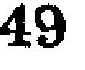49
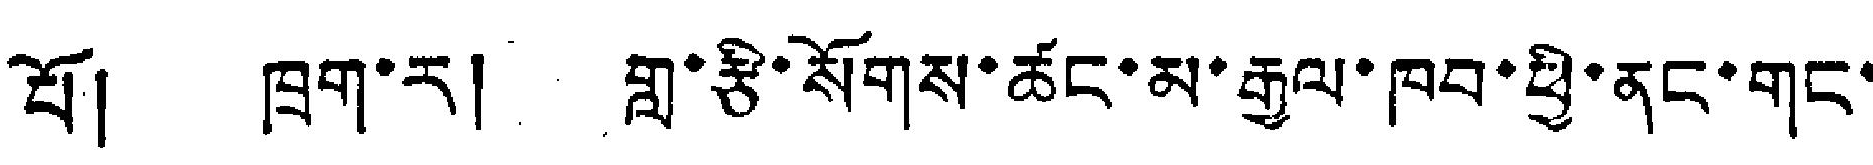པོ། ཁྲག་ར། གླ་རྩི་སོགས་ཚང་མ་རྒྱལ་ཁབ་ཕྱི་ནང་གང་
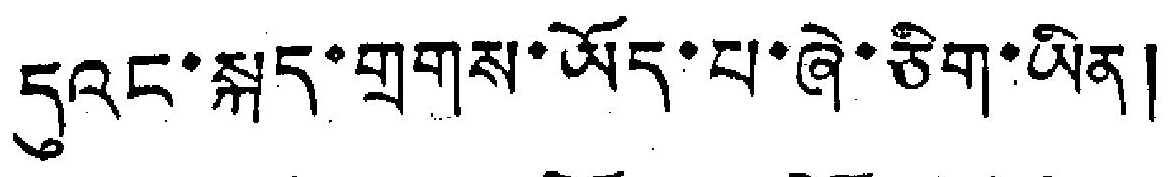དུའང་སྐད་གྲགས་ཡོད་པ་ཞེ་ཅིག་ཡིན།
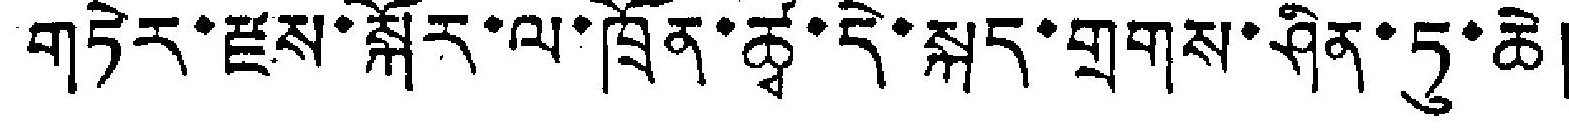གཏེར་རྫས་སྐོར་ལ་ཁྲོན་ཚྭ་དེ་སྐད་གྲགས་ཤིན་ཏུ་ཆེ།
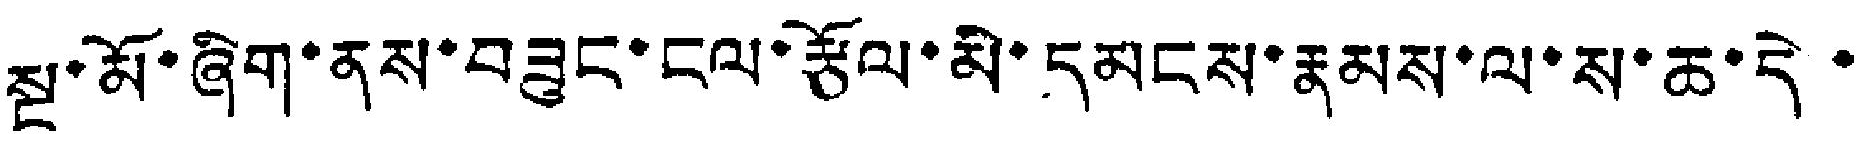སྲ་མོ་ཞིག་ནས་བཟུང་ངལ་རྩོལ་མི་དམངས་རྣམས་ལ་ས་ཆ་དེ་
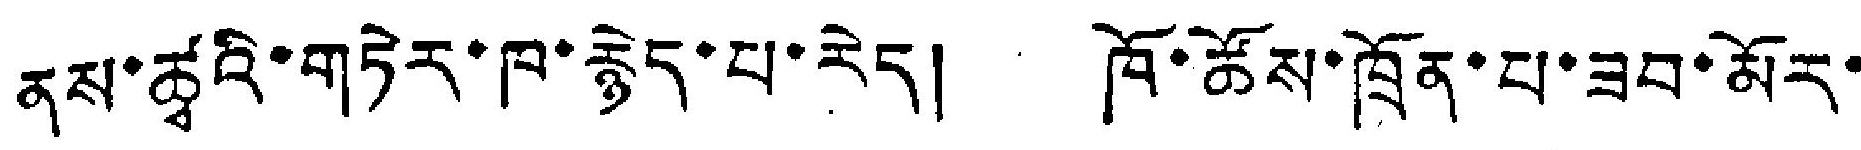ནས་ཚྭའི་གཏེར་ཁ་རྙེད་པ་རེད། ཁོ་ཚོས་ཁྲོན་པ་ཟབ་མོར་
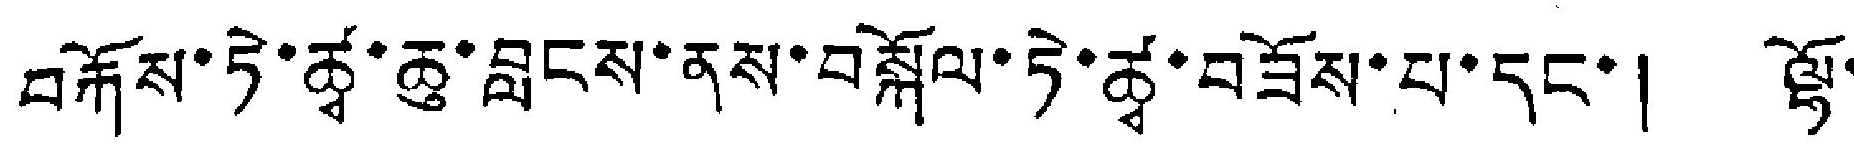བརྐོས་ཏེ་ཚྭ་ཆུ་བླངས་ནས་བསྐོལ་ཏེ་ཚྭ་བཟོས་པ་དང་། ལྷོ་
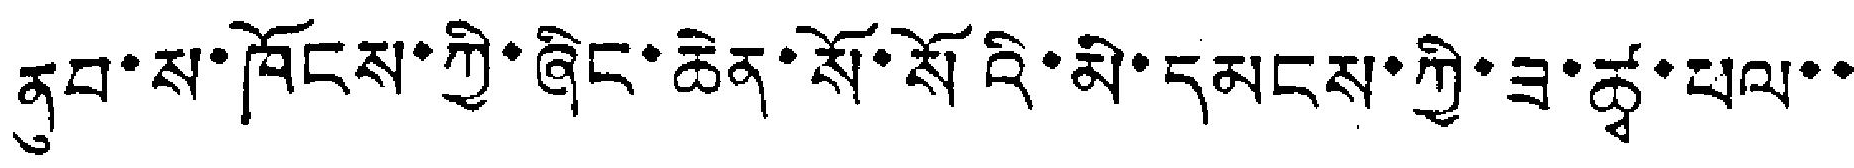ནུབ་ས་ཁོངས་ཀྱི་ཞིང་ཆེན་སོ་སོའི་མི་དམངས་ཀྱི་ཟ་ཚྭ་ཕལ་་
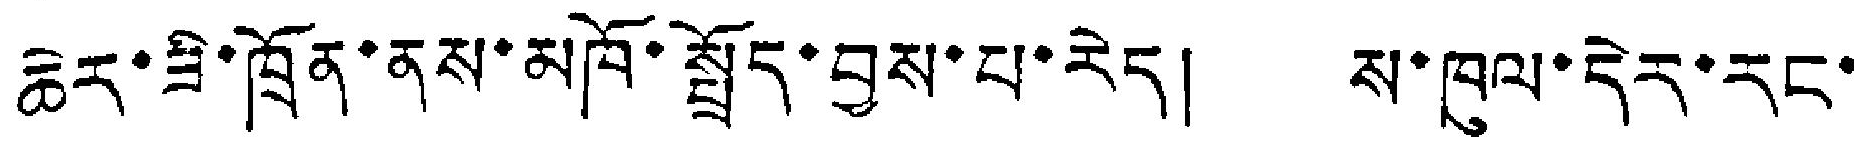ཆེར་ཟི་ཁྲོན་ནས་མཁོ་སྤྲོད་བྱས་པ་རེད། ས་ཁུལ་དེར་རང་
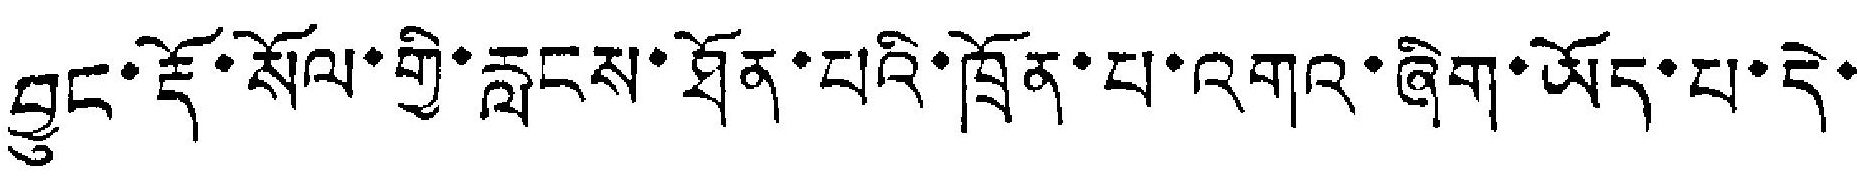བྱུང་རྡོ་སོལ་གྱི་རླངས་ཐོན་པའི་ཁྲོན་པ་འགའ་ཞིག་ཡོད་པ་དེ་
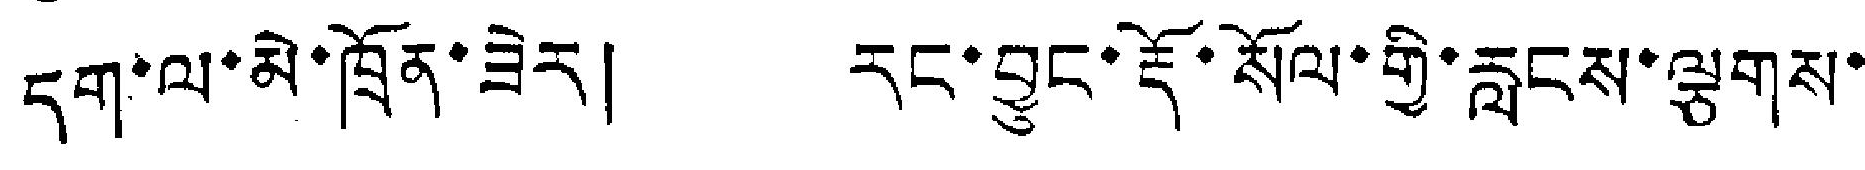དག་ལ་མེ་ཁྲོན་ཟེར། རང་བྱུང་རྡོ་སོལ་གྱི་རླངས་ལྕགས་
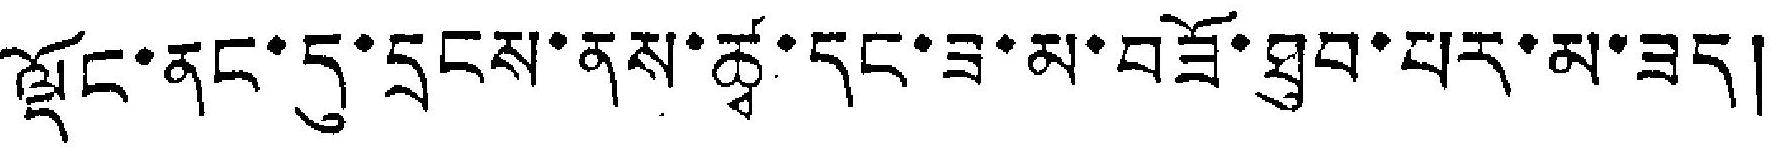ལྡོང་ནང་དུ་དྲངས་ནས་ཚྭ་དང་བ་མ་བཟོ་ཐུབ་པར་མ་ཟད།
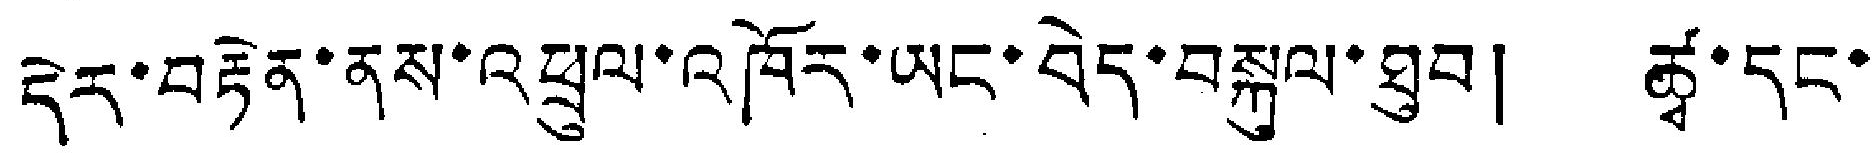དེར་བརྟེན་ནས་འཕྲུལ་འཁོར་ཡང་བེད་བསྐུལ་ཐུབ། ཚྭ་དང་
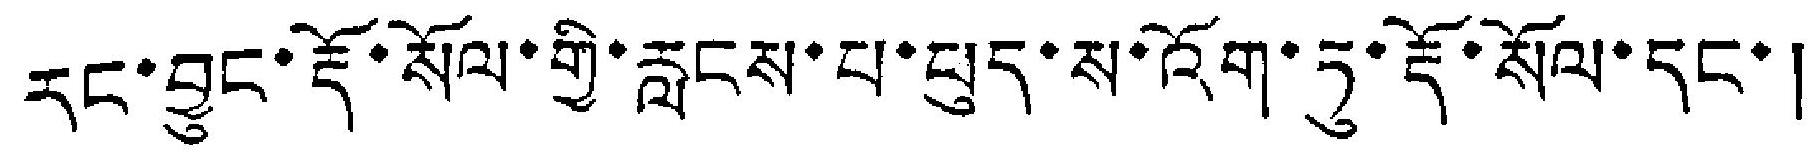རང་བྱུང་རྡོ་སོལ་གྱི་རླངས་པ་ཕུད་ས་འོག་ཏུ་རྡོ་སོལ་དང་།
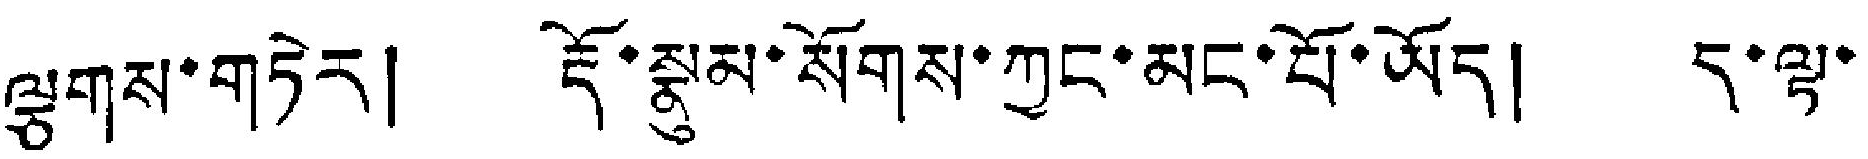ལྕགས་གཏེར། རྡོ་སྣུམ་སོགས་ཀྱང་མང་པོ་ཡོད། ད་ལྟ་
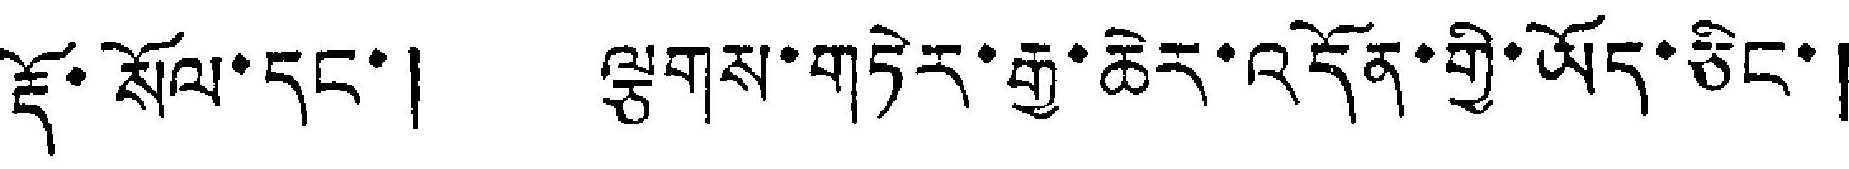རྡོ་སོལ་དང་། ལྕགས་གཏེར་རྒྱ་ཆེར་འདོན་གྱི་ཡོད་ཅིང་།
